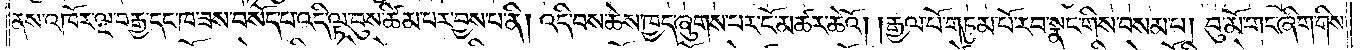ནས་འཁོར་ལྔ་བརྒྱ་དང་ཁ་ཟས་བསོད་པ་འདི་ལྟ་བུས་ཚིམ་པར་བྱས་པ་ནི། འདི་བས་ཆེས་ཁྱད་ཞུགས་པར་ངོ་མཚར་ཆེའོ། །རྒྱལ་པོ་གཏུམ་པོ་རབ་སྣང་གིས་བསམ་པ། བུ་མོ་གང་ཞིག་གིས་
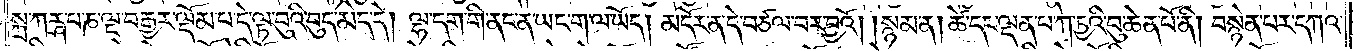སྐྲ་ཀརྴ་པ་ཎ་ལྔ་བརྒྱར་ལྡོམ་པ་དེ་ལྟ་བུའི་བུད་མེད་དེ། ལྷ་དག་གི་ནང་ན་ཡང་ག་ལ་ཡོད། མདོར་ན་དེ་བཙལ་བར་བྱའོ། །སྙམ་ན། ཚེ་དང་ལྡན་པ་ཀ་ཏྱའི་བུ་ཆེན་པོ་ནི། བསྙེན་པར་དཀའ་
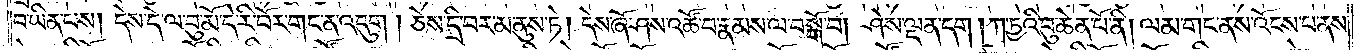བ་ཡིན་པས། དེས་དེ་ལ་བུ་མོ་དེ་རི་བོར་གང་ན་འདུག །ཅེས་དྲི་བར་མ་ནུས་ཏེ། དེས་ཞོ་ཤས་འཚོ་བ་རྣམས་ལ་བསྒོ་བ། ཤེས་ལྡན་དག །ཀ་ཏྱའི་བུ་ཆེན་པོ་ནི། ལམ་གང་ནས་འོངས་པ་ནས་
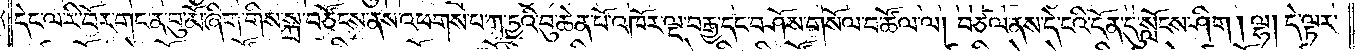དེང་ལ་རི་བོར་གང་ན་བུ་མོ་ཞིག་གིས་སྐྲ་བཙོངས་ནས་འཕགས་པ་ཀ་ཏྱའི་བུ་ཆེན་པོ་འཁོར་ལྔ་བརྒྱ་དང་བཤོས་གསོལ་བ་ཚོལ་ལ། བཙལ་ནས་དེ་ངའི་དོན་དུ་སློངས་ཤིག །ལྷ། དེ་ལྟར་
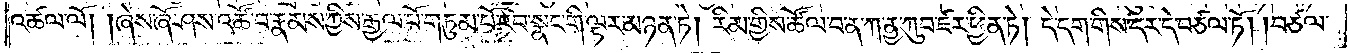འཚལ་ལོ། །ཞེས་ཞོ་ཤས་འཚོ་བ་རྣམས་ཀྱིས་རྒྱལ་པོ་གཏུམ་པོ་རབ་སྣང་གི་ལྟར་མཉན་ཏེ། རིམ་གྱིས་ཚོལ་བ་ན་ཀ་ནྱ་ཀུབ་ཛར་ཕྱིན་ཏེ། དེ་དག་གིས་དར་དེ་བཙལ་ཏོ། །བཙལ་
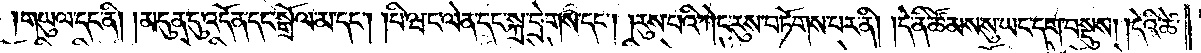།གཡུལ་དང་ནི། །མདུན་དུ་འདོན་དང་སྒྲོལ་མ་དང༌། །པི་ཝང་ལེན་དང་སྐྲ་བྲེགས་དང༌། །རུས་པའི་ཀེང་རུས་བཏོགས་པར་ནི། །དེ་ནི་ཚོམས་སུ་ཡང་དག་བསྡུས། །དེའི་ཚེ་
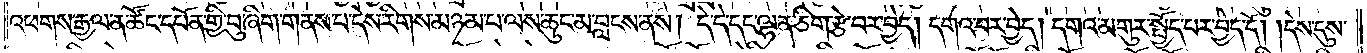འཕགས་རྒྱལ་ན་ཚོང་དཔོན་གྱི་བུ་ཞིག་གནས་པ་དེས་རིགས་མཉམ་པ་ལས་ཆུང་མ་བླངས་ནས། དེ་དེ་དང་ལྷན་ཅིག་རྩེ་བར་བྱེད། དགའ་བར་བྱེད། དགའ་མགུར་སྤྱོད་པར་བྱེད་དོ། །དེས་དུས་
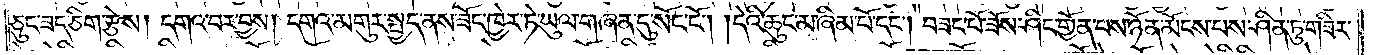ཅུང་ཟད་ཅིག་རྩེས། དགའ་བར་བྱས། དགའ་མགུར་སྤྱད་ནས་ཟོང་ཁྱེར་ཏེ་ཡུལ་གཞན་དུ་སོང་ངོ༌། །དེའི་ཆུང་མ་ཞིམ་པོ་དང༌། བཟང་པོ་ཟོས་ཤིང་གྱོན་པས་ཉོན་མོངས་པས་ཤིན་ཏུ་གཟིར་
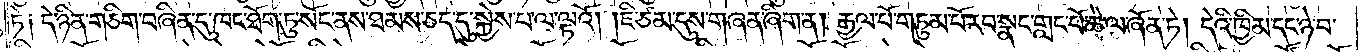ཏེ༑ དེ་ཉིན་གཅིག་བཞིན་དུ་ཁང་ཐོག་ཏུ་སོང་ནས་ཐམས་ཅད་དུ་སྐྱེས་པ་ལ་ལྟའོ། །ཇི་ཙམ་དུས་གཞན་ཞིག་ན། རྒྱལ་པོ་གཏུམ་པོ་རབ་སྣང་གླང་པོ་ཆེ་ལ་ཞོན་ཏེ། དེའི་ཁྱིམ་དང་ཉེ་བ་
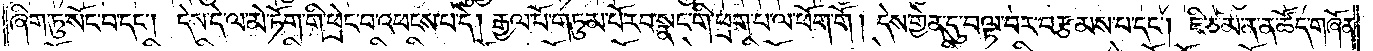ཞིག་ཏུ་སོང་བ་དང༌། དེས་དེ་ལ་མེ་ཏོག་གི་ཕྲེང་བ་འཕངས་པ་དེ། རྒྱལ་པོ་གཏུམ་པོ་རབ་སྣང་གི་ཕྲག་པ་ལ་ཕོག་གོ། །དེས་གྱེན་དུ་བལྟ་བར་བརྩམས་པ་དང༌། ཇི་ཙམ་ན་ན་ཚོད་གཞོན་
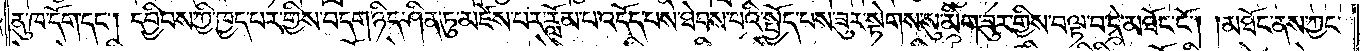ནུ་ཁ་དོག་དང༌། དབྱིབས་ཀྱི་ཁྱད་པར་གྱིས་བདག་ཉིད་ཤིན་ཏུ་མཛེས་པར་རློམ་པ་འདོད་པས་ཐེབས་པའི་སྤྱོད་པས་ཟུར་སྟེགས་སུ་མིག་ཟུར་གྱིས་བལྟ་བ་དེ་མཐོང་ངོ༌། །མཐོང་ནས་ཀྱང་
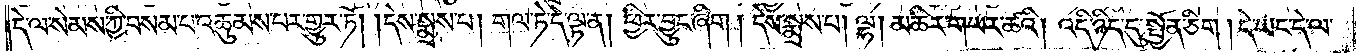དེ་ལ་སེམས་ཀྱི་བསམ་པ་འཆུམས་པར་གྱུར་ཏོ། །དེས་སྨྲས་པ། གལ་ཏེ་དེ་ལྟ་ན། ཕྱིར་བྱུང་ཞིག། དེས་སྨྲས་པ། ལྷ། མཆིར་གཡར་ཚའི། འདི་ཉིད་དུ་སྤྱོན་ཅིག །དེ་ཡང་དེ་ལ་
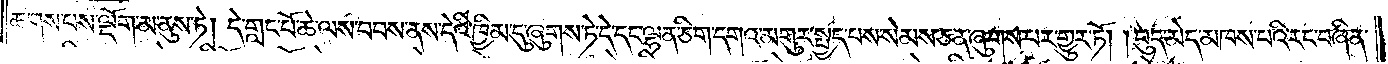ཆགས་པས་ལྡོག་མ་ནུས་ཏེ། དེ་གླང་པོ་ཆེ་ལས་བབས་ནས་དེའི་ཁྱིམ་དུ་ཞུགས་ཏེ་དེ་དང་ལྷན་ཅིག་དགའ་མགུར་སྤྱད་པས་སེམས་ཅན་ཞུགས་པར་གྱུར་ཏོ། །བུད་མེད་མཁས་པའི་རང་བཞིན་
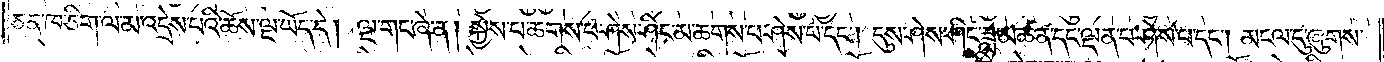ཅན་ཁ་ཅིག་ལ་མ་འདྲེས་པའི་ཆོས་ལྔ་ཡོད་དེ། ལྔ་གང་ཞེ་ན། སྐྱེས་པ་ཆགས་པ་ཤེས་ཤིང་མ་ཆགས་པ་ཤེས་པ་དང༌། དུས་ཤེས་ཤིང་ཟླ་མཚན་དང་ལྡན་པ་ཤེས་པ་དང༌། མངལ་དུ་ཞུགས་
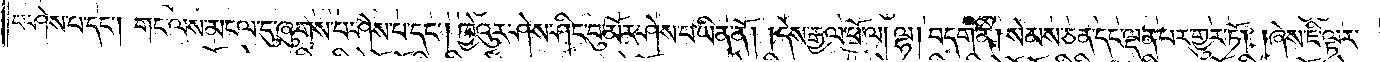པ་ཤེས་པ་དང༌། གང་ལས་མངལ་དུ་ཞུགས་པ་ཤེས་པ་དང༌། ཁྱེའུར་ཤེས་ཤིང་བུ་མོར་ཤེས་པ་ཡིན་ནོ། །དེས་རྒྱལ་པོ་ལ། ལྷ། བདག་ནི། སེམས་ཅན་དང་ལྡན་པར་གྱུར་ཏོ། །ཞེས་ཇི་ལྟར་
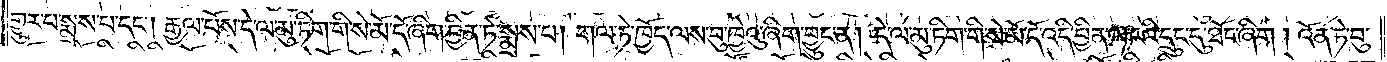གྱུར་པ་སྨྲས་པ་དང༌། རྒྱལ་པོས་དེ་ལ་མུ་ཏིག་གི་སེ་མོ་དོ་ཞིག་བྱིན་ཏེ་སྨྲས་པ། གལ་ཏེ་ཁྱོད་ལས་བུ་ཁྱེའུ་ཞིག་བྱུང་ན། དེ་ལ་མུ་ཏིག་གི་སེ་མོ་དོ་འདི་བྱིན་ལ་ངའི་དྲུང་དུ་ཐོང་ཞིག། འོན་ཏེ་བུ་
